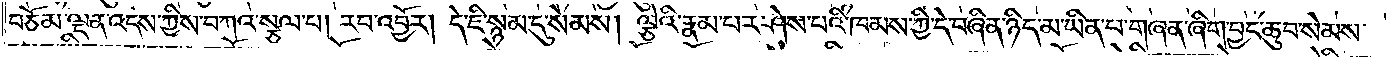བཅོམ་ལྡན་འདས་ཀྱིས་བཀའ་སྩལ་པ། རབ་འབྱོར། དེ་ཇི་སྙམ་དུ་སེམས། ལྕེའི་རྣམ་པར་ཤེས་པའི་ཁམས་ཀྱི་དེ་བཞིན་ཉིད་མ་ཡིན་པ་གཞན་ཞིག་བྱང་ཆུབ་སེམས་
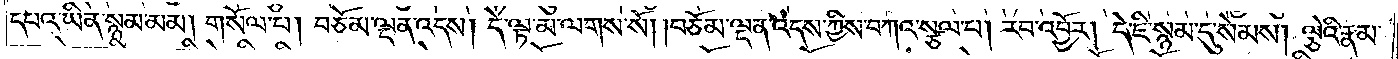དཔའ་ཡིན་སྙམ་མམ། གསོལ་པ། བཅོམ་ལྡན་འདས། དེ་ལྟ་མ་ལགས་སོ། །བཅོམ་ལྡན་འདས་ཀྱིས་བཀའ་སྩལ་པ། རབ་འབྱོར། དེ་ཇི་སྙམ་དུ་སེམས། ལྕེའི་རྣམ་
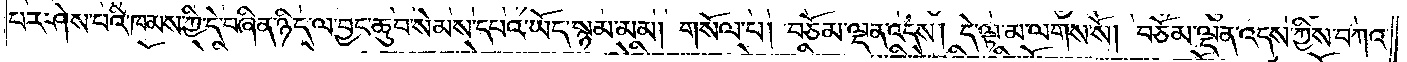པར་ཤེས་པའི་ཁམས་ཀྱི་དེ་བཞིན་ཉིད་ལ་བྱང་ཆུབ་སེམས་དཔའ་ཡོད་སྙམ་མམ། གསོལ་པ། བཅོམ་ལྡན་འདས། དེ་ལྟ་མ་ལགས་སོ། བཅོམ་ལྡན་འདས་ཀྱིས་བཀའ་
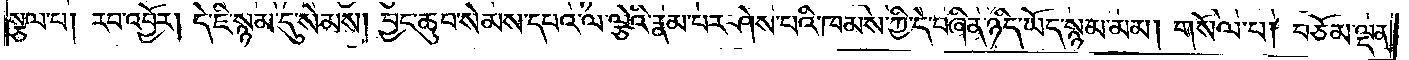སྩལ་པ། རབ་འབྱོར། དེ་ཇི་སྙམ་དུ་སེམས། བྱང་ཆུབ་སེམས་དཔའ་ལ་ལྕེའི་རྣམ་པར་ཤེས་པའི་ཁམས་ཀྱི་དེ་བཞིན་ཉིད་ཡོད་སྙམ་མམ། གསོལ་པ། བཅོམ་ལྡན་
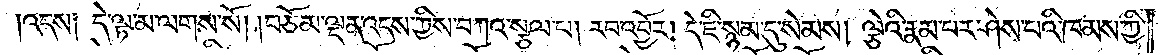འདས༑ དེ་ལྟ་མ་ལགས་སོ། །བཅོམ་ལྡན་འདས་ཀྱིས་བཀའ་སྩལ་པ། རབ་འབྱོར། དེ་ཇི་སྙམ་དུ་སེམས། ལྕེའི་རྣམ་པར་ཤེས་པའི་ཁམས་ཀྱི་
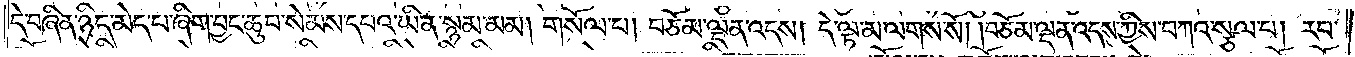དེ་བཞིན་ཉིད་མེད་པ་ཞིག་བྱང་ཆུབ་སེམས་དཔའ་ཡིན་སྙམ་མམ། གསོལ་པ། བཅོམ་ལྡན་འདས། དེ་ལྟ་མ་ལགས་སོ། །བཅོམ་ལྡན་འདས་ཀྱིས་བཀའ་སྩལ་པ། རབ་
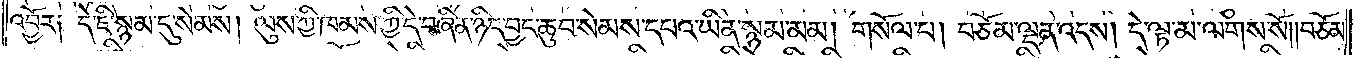འབྱོར༑ དེ་ཇི་སྙམ་དུ་སེམས། ལུས་ཀྱི་ཁམས་ཀྱི་དེ་བཞིན་ཉིད་བྱང་ཆུབ་སེམས་དཔའ་ཡིན་སྙམ་མམ། གསོལ་པ། བཅོམ་ལྡན་འདས། དེ་ལྟ་མ་ལགས་སོ། །བཅོམ་
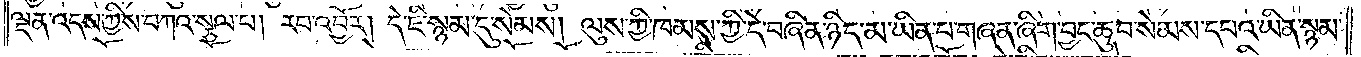ལྡན་འདས་ཀྱིས་བཀའ་སྩལ་པ། རབ་འབྱོར། དེ་ཇི་སྙམ་དུ་སེམས། ལུས་ཀྱི་ཁམས་ཀྱི་དེ་བཞིན་ཉིད་མ་ཡིན་པ་གཞན་ཞིག་བྱང་ཆུབ་སེམས་དཔའ་ཡིན་སྙམ་
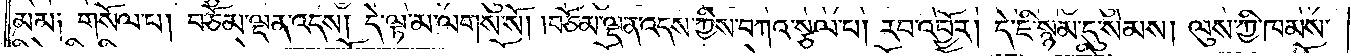མམ༑ གསོལ་པ། བཅོམ་ལྡན་འདས། དེ་ལྟ་མ་ལགས་སོ། །བཅོམ་ལྡན་འདས་ཀྱིས་བཀའ་སྩལ་པ། རབ་འབྱོར། དེ་ཇི་སྙམ་དུ་སེམས། ལུས་ཀྱི་ཁམས་
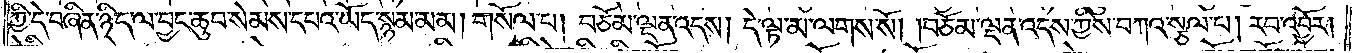ཀྱི་དེ་བཞིན་ཉིད་ལ་བྱང་ཆུབ་སེམས་དཔའ་ཡོད་སྙམ་མམ། གསོལ་པ། བཅོམ་ལྡན་འདས། དེ་ལྟ་མ་ལགས་སོ། །བཅོམ་ལྡན་འདས་ཀྱིས་བཀའ་སྩལ་པ། རབ་འབྱོར།
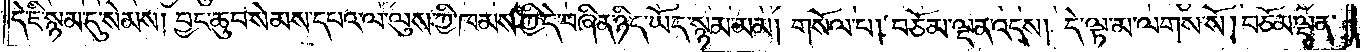དེ་ཇི་སྙམ་དུ་སེམས། བྱང་ཆུབ་སེམས་དཔའ་ལ་ལུས་ཀྱི་ཁམས་ཀྱི་དེ་བཞིན་ཉིད་ཡོད་སྙམ་མམ། གསོལ་པ། བཅོམ་ལྡན་འདས། དེ་ལྟ་མ་ལགས་སོ། བཅོམ་ལྡན་
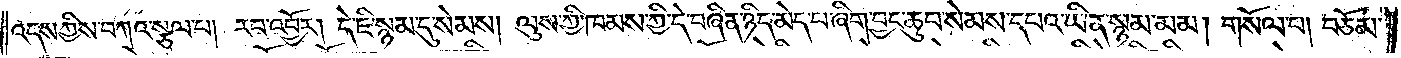འདས་ཀྱིས་བཀའ་སྩལ་པ། རབ་འབྱོར། དེ་ཇི་སྙམ་དུ་སེམས། ལུས་ཀྱི་ཁམས་ཀྱི་དེ་བཞིན་ཉིད་མེད་པ་ཞིག་བྱང་ཆུབ་སེམས་དཔའ་ཡིན་སྙམ་མམ། གསོལ་པ། བཅོམ་
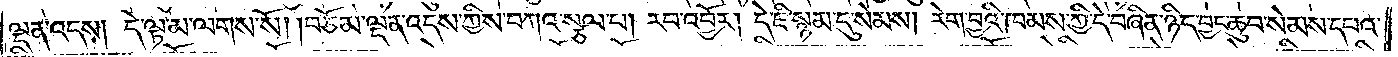ལྡན་འདས། དེ་ལྟ་མ་ལགས་སོ། །བཅོམ་ལྡན་འདས་ཀྱིས་བཀའ་སྩལ་པ། རབ་འབྱོར། དེ་ཇི་སྙམ་དུ་སེམས། རེག་བྱའི་ཁམས་ཀྱི་དེ་བཞིན་ཉིད་བྱང་ཆུབ་སེམས་དཔའ་
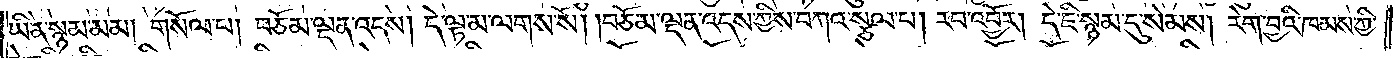ཡིན་སྙམ་མམ། གསོལ་པ། བཅོམ་ལྡན་འདས། དེ་ལྟ་མ་ལགས་སོ། །བཅོམ་ལྡན་འདས་ཀྱིས་བཀའ་སྩལ་པ། རབ་འབྱོར། དེ་ཇི་སྙམ་དུ་སེམས། རེག་བྱའི་ཁམས་ཀྱི་
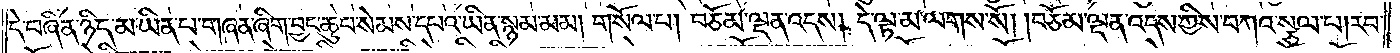དེ་བཞིན་ཉིད་མ་ཡིན་པ་གཞན་ཞིག་བྱང་ཆུབ་སེམས་དཔའ་ཡིན་སྙམ་མམ། གསོལ་པ། བཅོམ་ལྡན་འདས། དེ་ལྟ་མ་ལགས་སོ། །བཅོམ་ལྡན་འདས་ཀྱིས་བཀའ་སྩལ་པ། རབ་
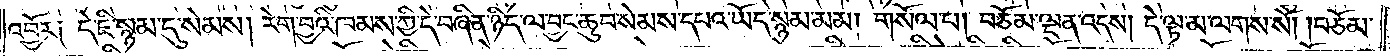འབྱོར༑ དེ་ཇི་སྙམ་དུ་སེམས། རེག་བྱའི་ཁམས་ཀྱི་དེ་བཞིན་ཉིད་ལ་བྱང་ཆུབ་སེམས་དཔའ་ཡོད་སྙམ་མམ། གསོལ་པ། བཅོམ་ལྡན་འདས། དེ་ལྟ་མ་ལགས་སོ། །བཅོམ་
